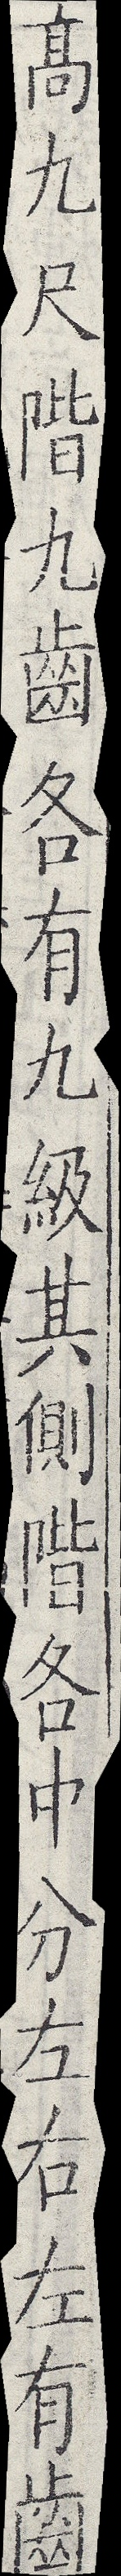高九尺階九齒各有九級其側階各中分左右左有齒
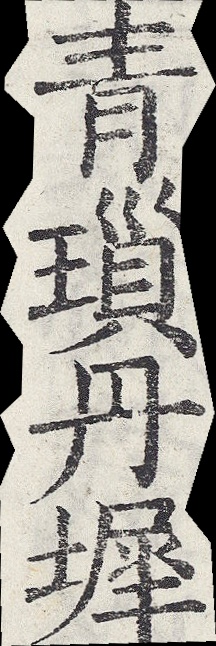青瑣丹墀
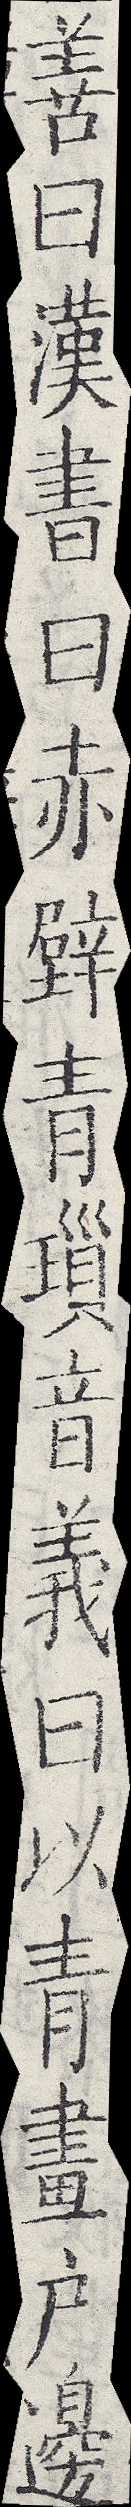善曰漢書曰赤壁青瑣音義曰以青畫戶邊
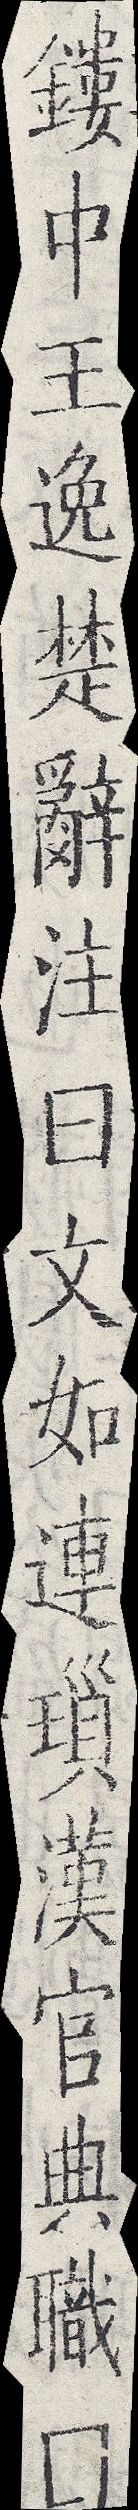鏤中王逸楚辭注曰文如連瑣漢官典職口
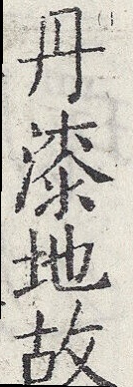丹漆地故
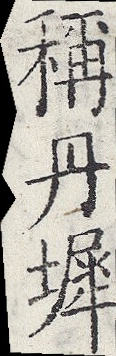稱丹墀
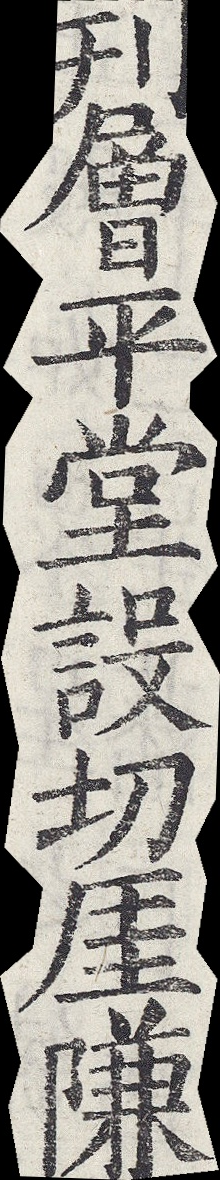刊層平堂設切厓隒
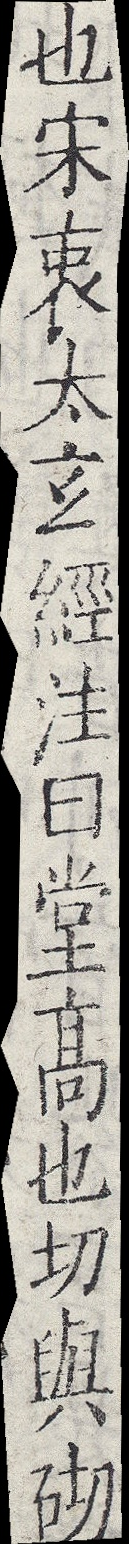也宋衷太玄經注曰堂高也切與砌
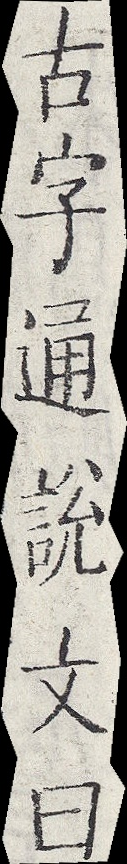古字通說文曰
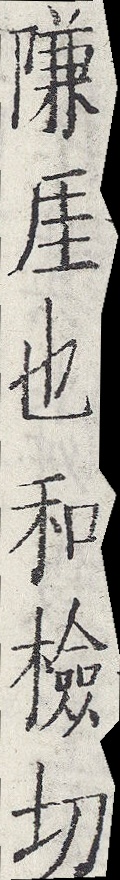隒厓也和檢切
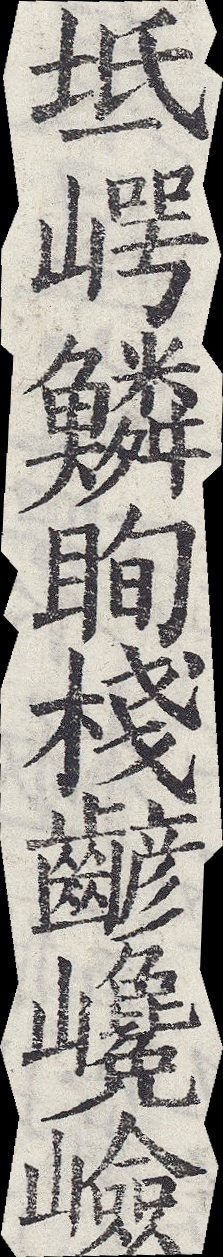坻崿鱗眴棧齴巉嶮
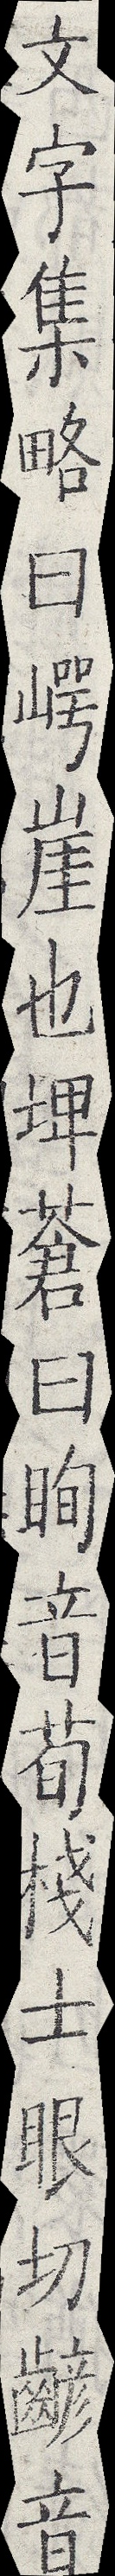文字集略曰崿崖也埤蒼曰眴音荀棧士眼切齴音
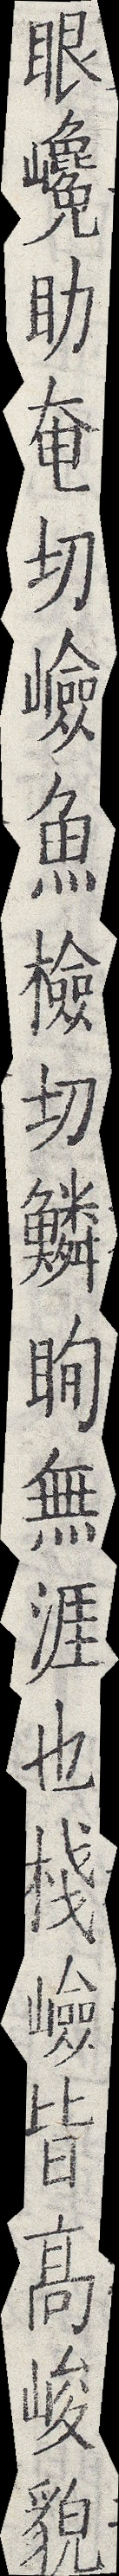眼巉助奄切嶮魚檢切鱗眴無涯也棧嶮皆高峻貌
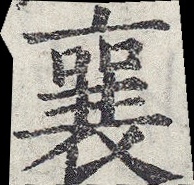襄
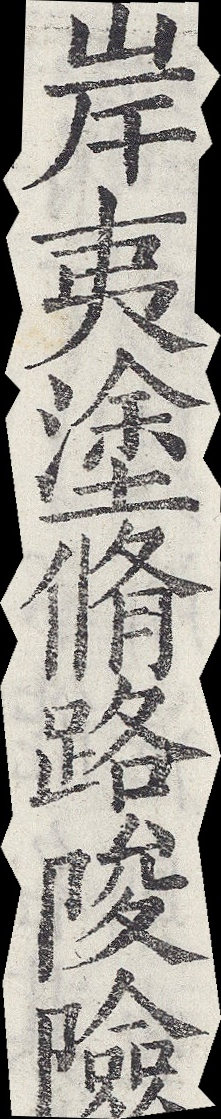岸夷塗脩路陖險
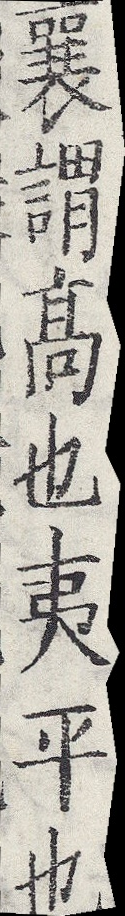襄謂高也夷平也
